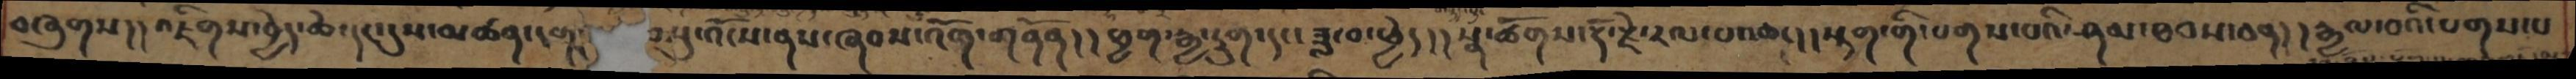བཞུགས།།འཇིགས་བྱེད་ཆེ་དང་དུས་མཚན་དག།། བསུ་འོངས་ནས་ཞབས་འོག་གནོན།།ཕྱག་རྒྱ་དྲུག་དང་ཟླ་བ་ཕྱེད།། སྣ་ཚོགས་རྡོ་རྗེ་རལ་པ་འཆང། །སྟག་གི་པགས་པའི་ཤམ་ཐབས་ཅན། །རྒྱལ་བའི་པགས་པ
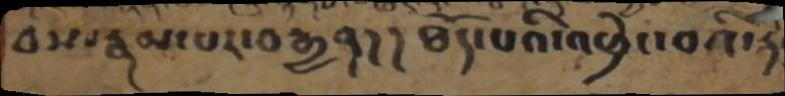བས་རྣམ་པར་བརྒྱན།། ཐོད་པའི་འཕྲེང་བའི་རྡོ་
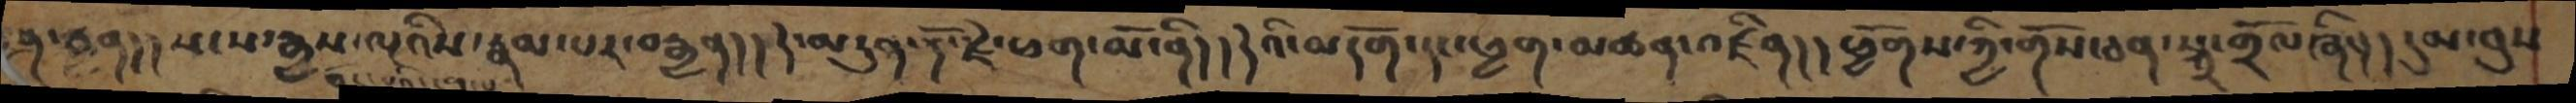ཤ་ཅན།།སངས་རྒྱས་ལྔའིས་རྣམ་པར་བརྒྱན།།དེ་མདུན་རྡོ་རྗེ་ཕག་མོ་ནི། །དེའི་མདོག་དང་ཕྱག་མཚན་འཛིན། །ཕྱོགས་ཀྱི་གོས་ཅན་སྐྲ་གྲོལ་ཞིང། །དུམ་བུས་
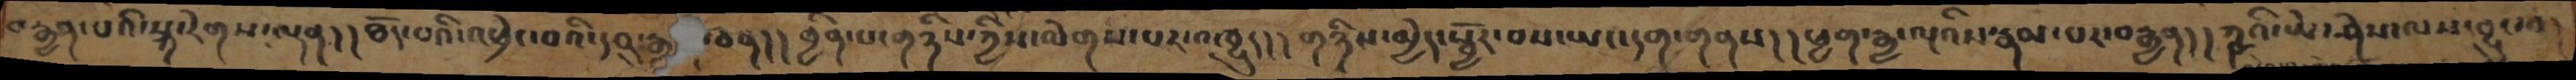བརྒྱན་པའི་སྐ་རེགས་ལྡན། །ཐོད་པའི་འཕྲེང་བའི་དབུ་རྒྱན་ཅན།།བྱིན་པ་གཉིས་ཀྱིས་ལེགས་པར་འཁྱུད།།གཉིས་མྱེད་སྦྱོར་བས་ཡང་དག་གནས།།ཕྱག་རྒྱ་ལྔའིས་རྣམ་པར་བརྒྱན།། ཀྵའི་ཡེ་ཤེས་ལས་བྱུང་བ།
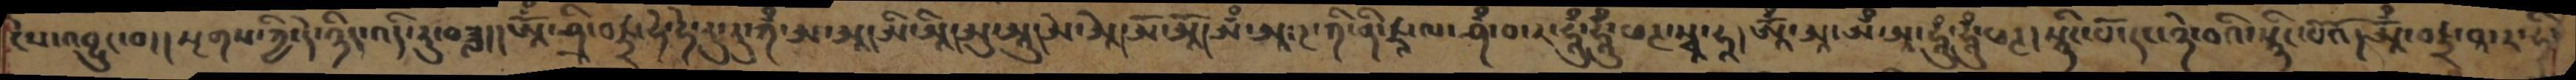ངེས་འབྱུང་བ།།སྔགས་ཀྱི་དེ་ཉིད་འདི་རུ་བཟླ།།ཨཱོྃ་ཤྲཱི་བཛྲ་ཧེ་ཧེ་རུ་རུ་ཀྃ་ཨ་ཨཱ།ཨི་ཨཱི།ཨུ་ཨཱུ།ཨེ་ཨཱེ། ཨོ་ཨཱོ། ཨྃ་ཨཱ་ཌ་ཀི་ནི་ཛྭ་ལ་ཤྃ་བ་ར་ཧཱུྃ་ཧཱུྃ་ཕཊ་སྭཱ་ཧཱ།ཨཱོྃ་ཨཱ་ཨྃ་ཨཱ་ཧཱུྃ་ཧཱུྃ་ཕཊ།སྙིང་པོ་དང་ཉེ་བའི་སྙིང་་པོའོ། ཨཱོྃ་བཛྲ་བཱ་ར་ཧཱི་
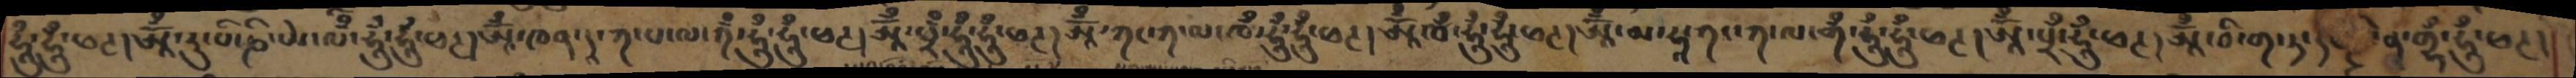ཧཱུྃ་ཧཱུྃ་ཕཊ། ཨཱོྃ་རུ་པི་ཎི་ཡེ་ལྃ་ཧཱུྃ་ཧཱུྃ་ཕཊ།ཨཱོྃ་ཁན་དཱ་ཀ་པ་ལ་ཀྃ་ཧཱུྃ་ཧཱུྃ་ཕཊ།ཨཱོྃ་ཕྲྃ་ཧཱུྃ་ཧཱུྃ་ཕཊ། ཨཱོྃ་ཀང་ཀ་ལ་ཁྃ་ཧཱུྃ་ཧཱུྃ་ཕཊ། ཨཱོྃ་བྃ་ཧཱུྃ་ཧཱུྃ་ཕཊ།ཨཱོྃ་མ་ཧཱ་ཀང་ཀ་ལ་ཀྃ་ཧཱུྃ་ཧཱུྃ་ཕཊ།ཨཱོྃ་པྲྃ་ཧཱུྃ་ཕཊ།ཨཱོྃ་བི་ག་ཏ་ད་ ན་གྷྃ་ཧཱུྃ་ཕཊ།
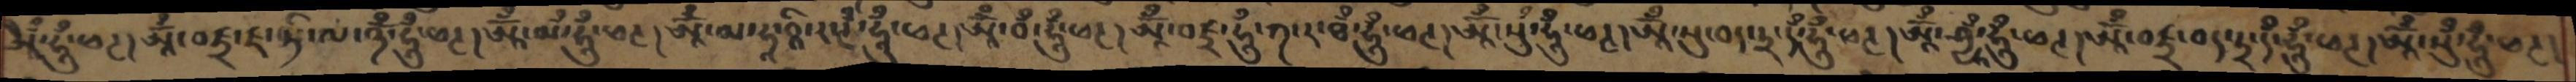ཨཱྃ་ཧཱུྃ་ཕཊ། ཨཱོྃ་བཛྲ་ཛ་ཏི་ལ་ཀྃ་ཧཱུྃ་ཕཊ།ཨཱོྃ་ལྃ་ཧཱུྃ་ཕཊ།ཨཱོྃ་མ་ཧཱ་བཱི་ར་ཊྃ་ཧཱུྃ་ཕཊ།ཨཱོྃ་བྃ་ཧཱུྃ་ཕཊ།ཨཱོྃ་བཛྲ་ཧཱུྃ་ཀ་ར་ཐྃ་ཧཱུྃ་ཕཊ།ཨཱོྃ་སུྃ་ཧཱུྃ་ཕཊ། ཨཱོྃ་སུ་བད་ཏྲ་དྃ་ཧཱུྃ་ཕཊ།ཨཱོྃ་ཤྱྃ་ཧཱུྃ་ཕཊ།ཨཱོྃ་བཛྲ་བད་ཏྲ་དྃ་ཧཱུྃ་ཕཊ།ཨཱོྃ་སུྃ་ཧཱུྃ་ཕཊ།
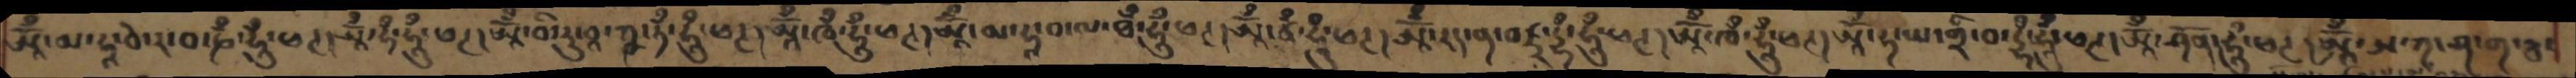ཨཱོྃ་མ་ཧཱ་བེ་ར་བ་ཎྃ་ཧཱུྃ་ཕཊ།ཨཱོྃ་ཏྃ་ཧཱུྃ་ཕཊ།ཨཱོྃ་བི་རུ་བཱ་ཀྵ་ཏྃ་ཧཱུྃ་ཕཊ། ཨཱོྃ་ཁྃ་ཧཱུྃ་ཕཊ།ཨཱོྃ་མ་ཧཱ་བ་ལ་ཐྃ་ཧཱུྃ་ཕཊ།ཨཱོྃ་ཙྃ་ཧཱུྃ་ཕཊ།ཨཱོྃ་རད་ན་བཛྲ་དྷྃ་ཧཱུྃ་ཕཊ།ཨཱོྃ་ཁྃ་ཧཱུྃ་ཕཊ།ཨཱོྃ་ཧ་ཡ་གྲི་བ་དྷྃ་ཧཱུྃ་ཕཊ།ཨཱོྃ་ཤོད་ཧཱུྃ་ཕཊ།ཨཱོྃ་ཨ་ཀ་ཤ་ག་རྦ་
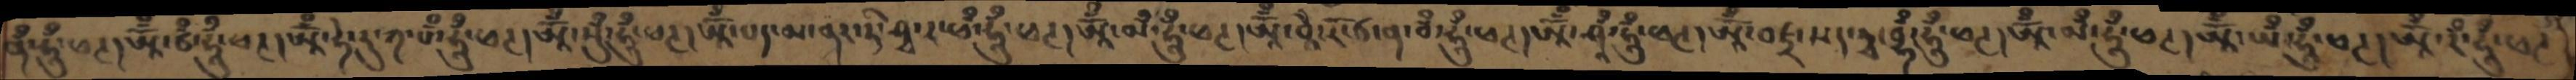ནྃ་ཧཱུྃ་ཕཊ།ཨཱོྃ་ཙྃ་ཧཱུྃ་ཕཊ།ཨཱོྃ་ཧེ་རུ་ཀ་པྃ་ཧཱུྃ་ཕཊ།ཨཱོྃ་སུཾ་ཧཱུྃ་ཕཊ། ཨཱོྃ་པད་མ་ནར་ཏི་ཤྭ་ར་ཕྃ་ཧཱུྃ་ཕཊ།ཨཱོྃ་མྃ་ཧཱུྃ་ཕཊ།ཨཱོྃ་བཱཻ་རོ་ཙ་ན་བྃ་ཧཱུྃ་ཕཊ།ཨཱོྃ་ཤཱྃ་ཧཱུྃ་ཕཊ།ཨཱོྃ་བཛྲ་སད་ཏྭ་བྷྃ་ཧཱུྃ་ཕཊ།ཨཱོྃ་མྃ་ཧཱུྃ་ཕཊ།ཨཱོྃ་ཡྃ་ཧཱུྃ་ཕཊ།ཨཱོྃ་རྃ་ཧཱུྃ་ཕཊ།
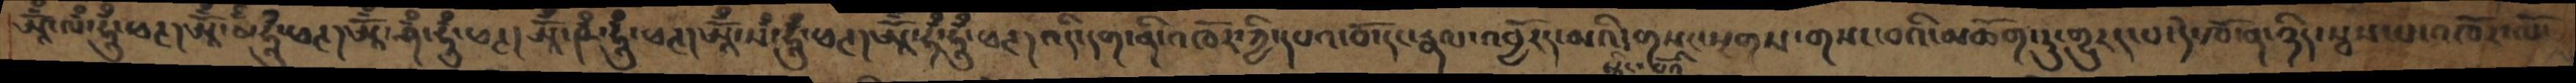ཨཱོྃ་ལྃ་ཧཱུྃ་ཕཊ།ཨཱོྃ་མྃ་ཧཱུྃ་ཕཊ།ཨཱོྃ་ཤྃ་ཧཱུྃ་ཕཊ།ཨཱོྃ་ཥྃ་ཧཱུྃ་ཕཊ།ཨཱོྃ་སྃ་ཧཱུྃ་ཕཊ།ཨཱོྃ་ཧྃ་ཧཱུྃ་ཕཊ།འདི་དག་ནི་འཁོར་ཀྱི་དཔའ་བོ་དང་རྣལ་འབྱོརད་མའི་གསང་སྔགས་གསང་བའི་མཆོག་ཏུ་གྱུརད་པ་དེ་ཁོ་ན་ཉིད་སྦས་པ་འཁོར་ལོ་
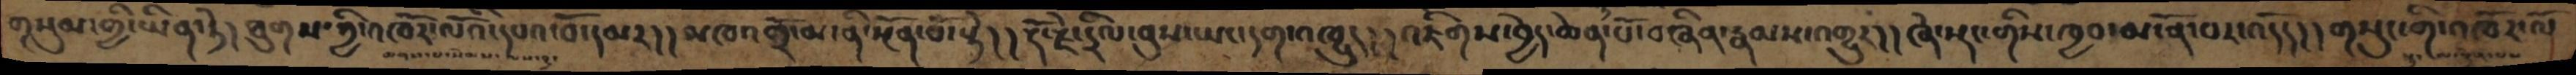གསུམ་གྱི་ཡིན་ཏེ།ཐུགས་ཀྱི་འཁོར་ལོའི་དཔའ་བོ་དམར།།མཁའགྲོ་མ་ནི་སྔོན་པོ་སྟེ།།རྡོ་རྗེ་དྲིལ་བུས་ཡང་དག་འཁྱུད།།འཇིགས་བྱེད་ཆེན་པོ་བཞིན་རྣམས་འགྱུར།།ཞེ་སྡང་གིས་ཁྱབ་མངོན་པར་འདོད།།གསུང་གི་འཁོར་ལོ
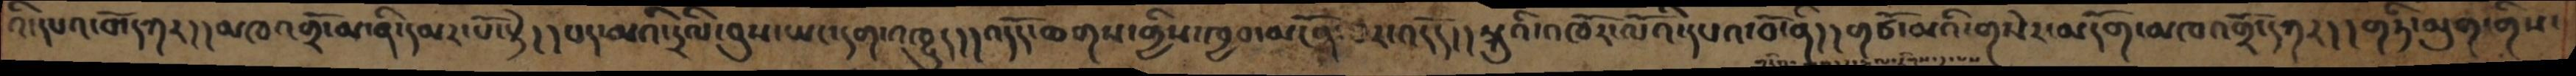འི་དཔའ་བོ་དཀར།།མཁའགྲོ་མ་ནི་དམར་པོ་སྟེ།།པད་མའི་དྲིལ་བུས་ཡང་དག་འཁྱུད།།འདོད་ཆགས་གྱིས་ཁྱབ་མངོན་པར་འདོད།།སྐུའི་འཁོར་ལོའི་དཔའ་བོ་ནི།།གཙོ་མའི་གསེར་མདོག་མཁའགྲོ་དཀར།།གཏི་མུག་གིས་
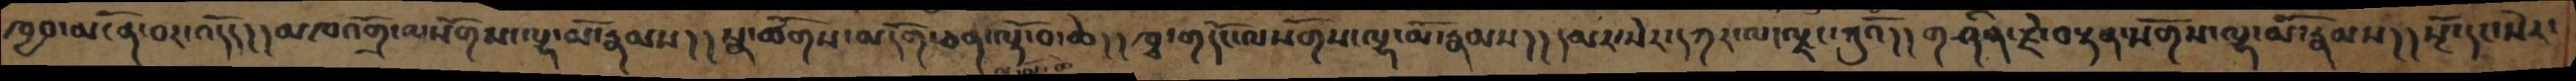ཁྱབ་མངོན་པར་འདོད།།མཁའགྲོ་ལསོགས་ལྷ་མོ་རྣམས།།སྣ་ཚོགས་མདོག་ཅན་ལྟོ་བ་ཆེ།།ཁྭ་གདོང་ལསོགས་ལྷ་མོ་རྣམས།།དམར་སེར་དཀར་ལ་ལྗང་ཀུའོ།།གཤིན་རྗེ་བསྟན་སོགས་ལྷ་མོ་རྣམས།།སྔོ་དང་སེར་
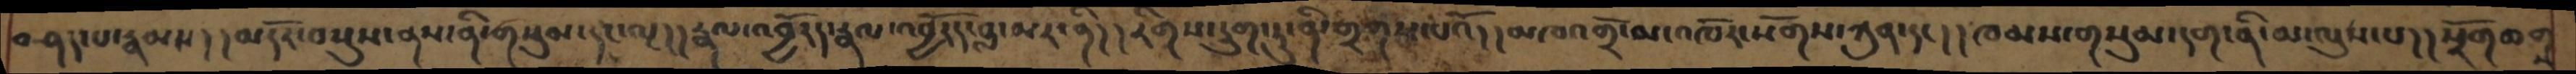བཤད་པ་རྣམས།།མདོར་བསྡུས་ནས་ནི་གསུམ་དང་ལྔ།།རྣལ་འབྱོརད་རྣལ་འབྱོརད་བླ་མར་ནི།།རིགས་དྲུག་ཏུ་ནི་གྲགས་པའོ།།མཁའགྲོ་མ་འཁོར་སོགས་ཀུན་དང། ཁམས་གསུམ་དག་ནི་མ་ལུས་པ།།སྲོག་ཆགས་
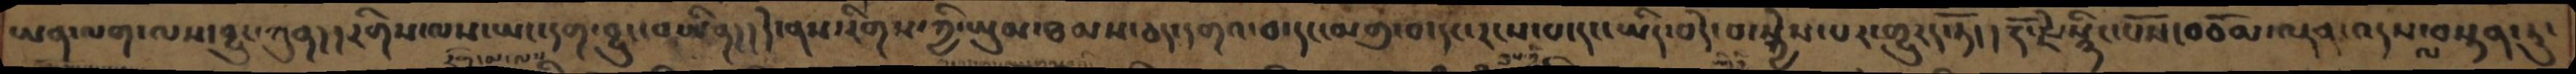ཡན་ལག་ལས་བྱུང་ཀུན།།རིགས་ལས་ཡང་དག་བྱུང་བ་ཡིན།།དེ་ནས་རིགས་ཀྱི་ཡུམ་ཐམས་ཅད་དགའ་བ་དང་མགུ་བ་དང་རངས་པ་དང་ཡིད་བདེ་བ་སྐྱེས་པར་འགྱུར་ཏོ།།རྡོ་རྗེ་སྙིང་པོས་བཅོམ་ལྡན་འདས་ལ་བསྟན་ཏུ་
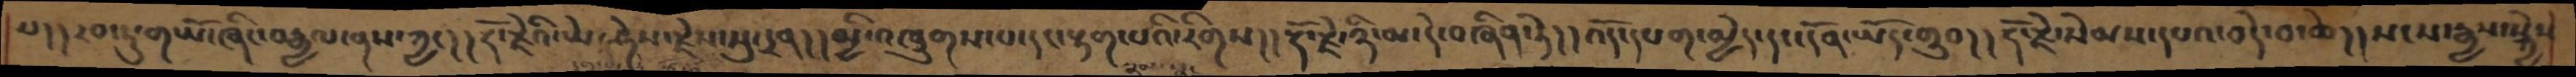པ།།རབ་ཏུ་གཡོ་ཞིང་བརྒྱལ་ནས་ཀྱང།།རྡོ་རྗེའི་ཡེ་ཤེས་རྗེས་སུ་དྲན།།མྱི་འཁྱུགས་པ་དང་སྟག་པའི་རིགས།།རྡོ་རྗེ་ཉི་མ་དེ་བཞིན་ཏེ།།འོད་དཔག་མྱེད་དང་དོན་ཡོད་གྲུབ།།རྡོ་རྗེ་སེམས་དཔའ་བདེ་བ་ཆེ།།སངས་རྒྱས་སྐྱེས
